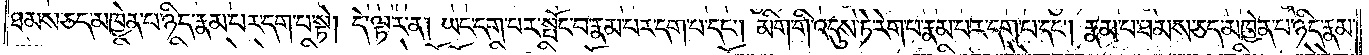ཐམས་ཅད་མཁྱེན་པ་ཉིད་རྣམ་པར་དག་པ་སྟེ། དེ་ལྟར་ན། ཡང་དག་པར་སྤོང་བ་རྣམ་པར་དག་པ་དང༌། མིག་གི་འདུས་ཏེ་རེག་པ་རྣམ་པར་དག་པ་དང༌། རྣམ་པ་ཐམས་ཅད་མཁྱེན་པ་ཉིད་རྣམ་
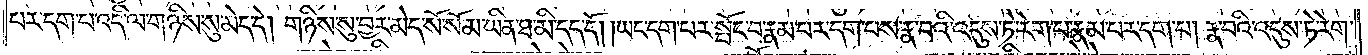པར་དག་པ་འདི་ལ་གཉིས་སུ་མེད་དེ། གཉིས་སུ་བྱར་མེད་སོ་སོ་མ་ཡིན་ཐ་མི་དད་དོ། །ཡང་དག་པར་སྤོང་བ་རྣམ་པར་དག་པས་རྣ་བའི་འདུས་ཏེ་རེག་པ་རྣམ་པར་དག་པ། རྣ་བའི་འདུས་ཏེ་རེག་
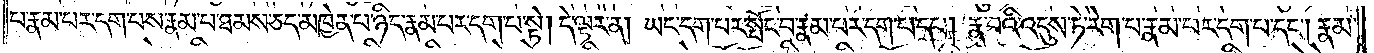པ་རྣམ་པར་དག་པས་རྣམ་པ་ཐམས་ཅད་མཁྱེན་པ་ཉིད་རྣམ་པར་དག་པ་སྟེ། དེ་ལྟར་ན། ཡང་དག་པར་སྤོང་བ་རྣམ་པར་དག་པ་དང༌། རྣ་བའི་འདུས་ཏེ་རེག་པ་རྣམ་པར་དག་པ་དང༌། རྣམ་
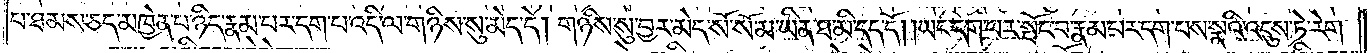པ་ཐམས་ཅད་མཁྱེན་པ་ཉིད་རྣམ་པར་དག་པ་འདི་ལ་གཉིས་སུ་མེད་དེ། གཉིས་སུ་བྱར་མེད་སོ་སོ་མ་ཡིན་ཐ་མི་དད་དོ། །ཡང་དག་པར་སྤོང་བ་རྣམ་པར་དག་པས་སྣའི་འདུས་ཏེ་རེག་
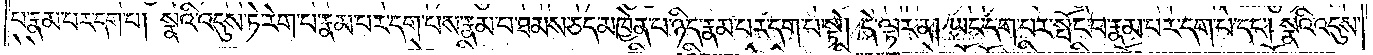པ་རྣམ་པར་དག་པ། སྣའི་འདུས་ཏེ་རེག་པ་རྣམ་པར་དག་པས་རྣམ་པ་ཐམས་ཅད་མཁྱེན་པ་ཉིད་རྣམ་པར་དག་པ་སྟེ། དེ་ལྟར་ན། ཡང་དག་པར་སྤོང་བ་རྣམ་པར་དག་པ་དང༌། སྣའི་འདུས་
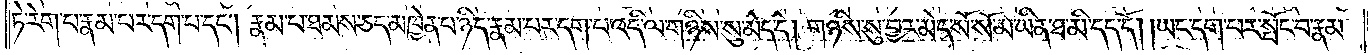ཏེ་རེག་པ་རྣམ་པར་དག་པ་དང༌། རྣམ་པ་ཐམས་ཅད་མཁྱེན་པ་ཉིད་རྣམ་པར་དག་པ་འདི་ལ་གཉིས་སུ་མེད་དེ། གཉིས་སུ་བྱར་མེད་སོ་སོ་མ་ཡིན་ཐ་མི་དད་དོ། །ཡང་དག་པར་སྤོང་བ་རྣམ་
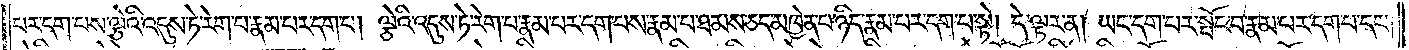པར་དག་པས་ལྕེའི་འདུས་ཏེ་རེག་པ་རྣམ་པར་དག་པ། ལྕེའི་འདུས་ཏེ་རེག་པ་རྣམ་པར་དག་པས་རྣམ་པ་ཐམས་ཅད་མཁྱེན་པ་ཉིད་རྣམ་པར་དག་པ་སྟེ། དེ་ལྟར་ན། ཡང་དག་པར་སྤོང་བ་རྣམ་པར་དག་པ་དང༌།
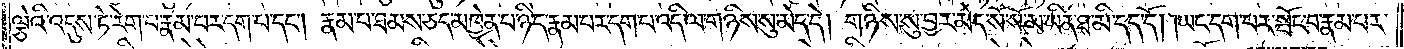ལྕེའི་འདུས་ཏེ་རེག་པ་རྣམ་པར་དག་པ་དང༌། རྣམ་པ་ཐམས་ཅད་མཁྱེན་པ་ཉིད་རྣམ་པར་དག་པ་འདི་ལ་གཉིས་སུ་མེད་དེ། གཉིས་སུ་བྱར་མེད་སོ་སོ་མ་ཡིན་ཐ་མི་དད་དོ། །ཡང་དག་པར་སྤོང་བ་རྣམ་པར་
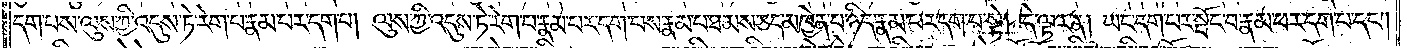དག་པས་ལུས་ཀྱི་འདུས་ཏེ་རེག་པ་རྣམ་པར་དག་པ། ལུས་ཀྱི་འདུས་ཏེ་རེག་པ་རྣམ་པར་དག་པས་རྣམ་པ་ཐམས་ཅད་མཁྱེན་པ་ཉིད་རྣམ་པར་དག་པ་སྟེ། དེ་ལྟར་ན། ཡང་དག་པར་སྤོང་བ་རྣམ་པར་དག་པ་དང༌།
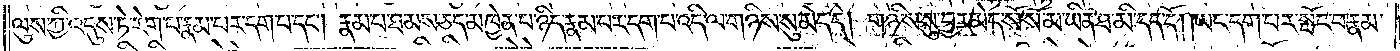ལུས་ཀྱི་འདུས་ཏེ་རེག་པ་རྣམ་པར་དག་པ་དང༌། རྣམ་པ་ཐམས་ཅད་མཁྱེན་པ་ཉིད་རྣམ་པར་དག་པ་འདི་ལ་གཉིས་སུ་མེད་དེ། གཉིས་སུ་བྱར་མེད་སོ་སོ་མ་ཡིན་ཐ་མི་དད་དོ། །ཡང་དག་པར་སྤོང་བ་རྣམ་
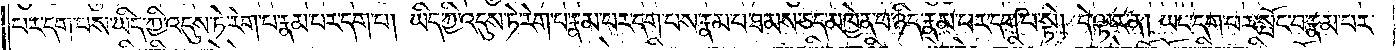པར་དག་པས་ཡིད་ཀྱི་འདུས་ཏེ་རེག་པ་རྣམ་པར་དག་པ། ཡིད་ཀྱི་འདུས་ཏེ་རེག་པ་རྣམ་པར་དག་པས་རྣམ་པ་ཐམས་ཅད་མཁྱེན་པ་ཉིད་རྣམ་པར་དག་པ་སྟེ། དེ་ལྟར་ན། ཡང་དག་པར་སྤོང་བ་རྣམ་པར་
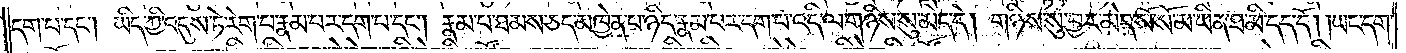དག་པ་དང༌། ཡིད་ཀྱི་འདུས་ཏེ་རེག་པ་རྣམ་པར་དག་པ་དང༌། རྣམ་པ་ཐམས་ཅད་མཁྱེན་པ་ཉིད་རྣམ་པར་དག་པ་འདི་ལ་གཉིས་སུ་མེད་དེ། གཉིས་སུ་བྱར་མེད་སོ་སོ་མ་ཡིན་ཐ་མི་དད་དོ། །ཡང་དག་
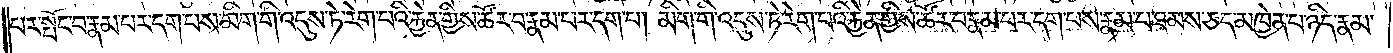པར་སྤོང་བ་རྣམ་པར་དག་པས་མིག་གི་འདུས་ཏེ་རེག་པའི་རྐྱེན་གྱིས་ཚོར་བ་རྣམ་པར་དག་པ། མིག་གི་འདུས་ཏེ་རེག་པའི་རྐྱེན་གྱིས་ཚོར་བ་རྣམ་པར་དག་པས་རྣམ་པ་ཐམས་ཅད་མཁྱེན་པ་ཉིད་རྣམ་
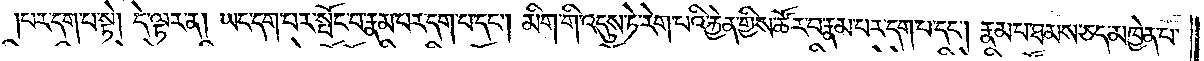པར་དག་པ་སྟེ། དེ་ལྟར་ན། ཡང་དག་པར་སྤོང་བ་རྣམ་པར་དག་པ་དང༌། མིག་གི་འདུས་ཏེ་རེག་པའི་རྐྱེན་གྱིས་ཚོར་བ་རྣམ་པར་དག་པ་དང༌། རྣམ་པ་ཐམས་ཅད་མཁྱེན་པ་
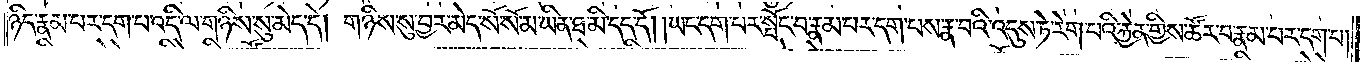ཉིད་རྣམ་པར་དག་པ་འདི་ལ་གཉིས་སུ་མེད་དེ། གཉིས་སུ་བྱར་མེད་སོ་སོ་མ་ཡིན་ཐ་མི་དད་དོ། །ཡང་དག་པར་སྤོང་བ་རྣམ་པར་དག་པས་རྣ་བའི་འདུས་ཏེ་རེག་པའི་རྐྱེན་གྱིས་ཚོར་བ་རྣམ་པར་དག་པ།
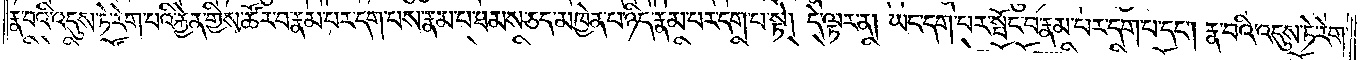རྣ་བའི་འདུས་ཏེ་རེག་པའི་རྐྱེན་གྱིས་ཚོར་བ་རྣམ་པར་དག་པས་རྣམ་པ་ཐམས་ཅད་མཁྱེན་པ་ཉིད་རྣམ་པར་དག་པ་སྟེ། དེ་ལྟར་ན། ཡང་དག་པར་སྤོང་བ་རྣམ་པར་དག་པ་དང༌། རྣ་བའི་འདུས་ཏེ་རེག་
